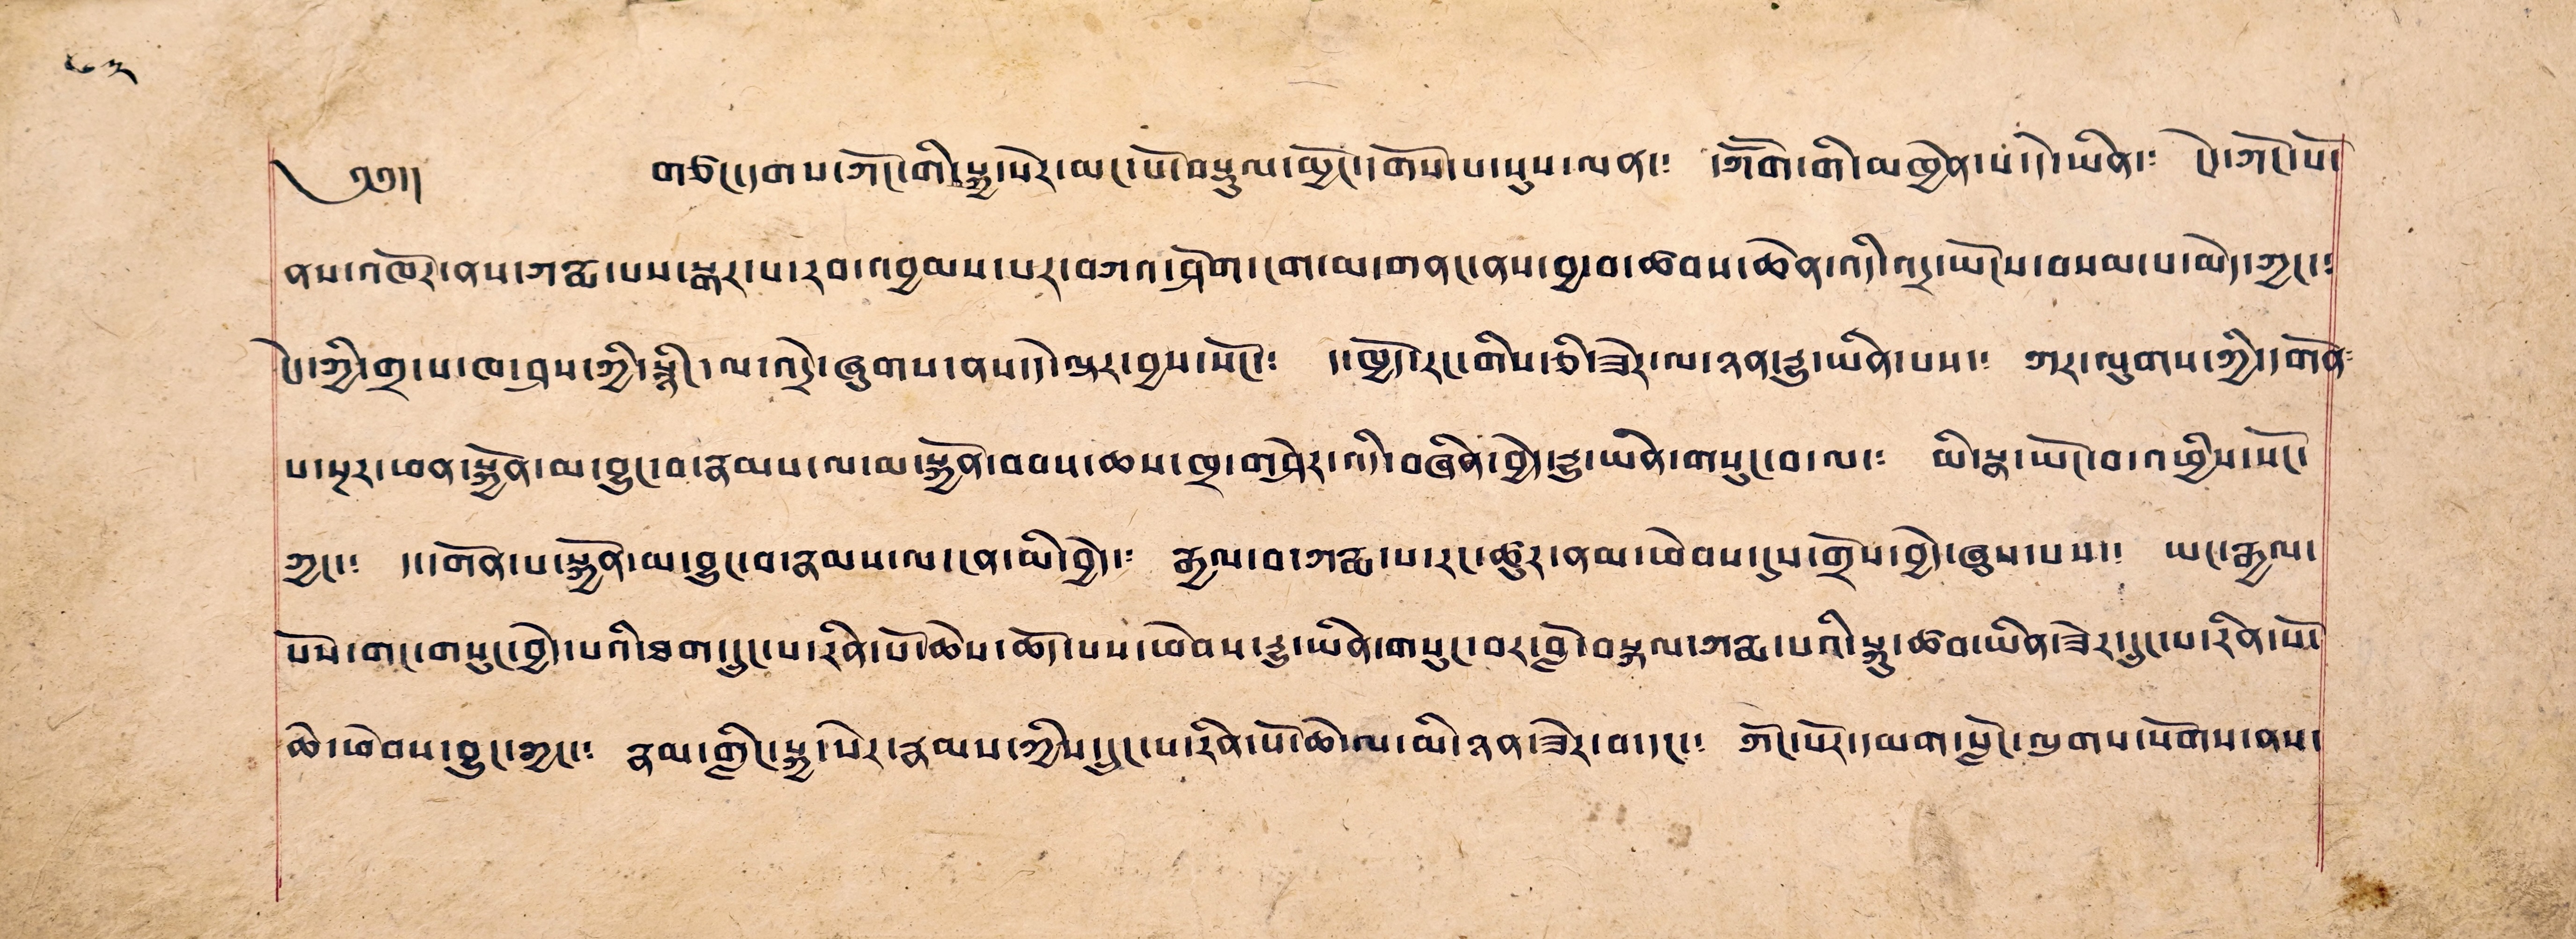༄༅།། གཙང་དགས་ཀོང་གི་སྐྱ་སེར་མང་པོ་བསྟུལ་ཕྱོང་དགོས་པ་སུས་ལན། དཀོག་གི་མཁྱེན་པ་དེ་ཡིན་༴ ངེད་ཀོང་པོ་
ནས་འཁོར་ནས་ཀརྨ་པས་སྒར་པ་རབ་འབྱམས་པར་བཀའ་ཤོག་ངག་མ་གནང་ནས་བྱ་བ་ཚབས་ཆེན་འདི་འདྲ་ཡོངས་བསམ་པ་མེད་ཀྱང་༴
ངེད་ཀྱི་གྲ་པ་ཁ་ཤས་ཀྱི་སྙིང་ལ་འདྲེ་ཞུགས་ནས་དེ་ལྟར་བྱས་སོང་༴ ད་ཁྱོད་རང་གིས་ཅི་ཟེར་ལ་ཉན་རྒྱུ་ཡིན་པས་༴ ཀར་ལུགས་ཀྱི་དགོན༴
པ་སྔར་ཕན་སྐྱོན་མ་བྱུང་བ་རྣམས་ལ་མ་སྐྱོན་བབས་ཆས་ཁྲ་གཤེར་འདི་བཞིན་བྱེད་རྒྱུ་ཡིན་གསུང་བ་ལ་༴ མི་སྣ་ཡོང་བ་འཕྱིས་སོང་
ཀྱང་༴ ད་དགོན་པ་སྐྱོན་མ་བྱུང་བ་རྣམས་ལ་ངན་མི་བྱེད་༴ རྒྱལ་བ་ཀརྨ་པ་རང་ཚུར་ནམ་ཕེབས་དུས་གྲོས་བྱེད་ཞུས་པས་༴ ཡང་རྒྱལ་
པོས་གང་གསུང་བྱེད་པའི་ཐག་དྲུང་པ་རིན་པོ་ཆེས་ཆོད་པས་ཕེབས་རྒྱུ་ཡིན་གསུང་བར་བློ་བསྐལ་ཀརྨ་པའི་སྐུ་ཚབ་ཡིན་ཟེར་དྲུང་པ་རིན་པོ་
ཆེ་ཕེབས་བྱུང་ཀྱང་༴ རྣམ་གླིང་སྐྱ་སེར་རྣམས་ཀྱིས་དྲུང་པ་རིན་པོ་ཆེ་ལ་མི་ཉན་ཟེར་བ་དང་༴ ཀོང་པོར་དམག་སློང་ལུགས་སོགས་ནས་
